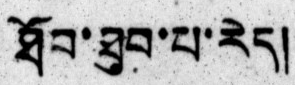ཐོབ་ཐུབ་པ་རེད།
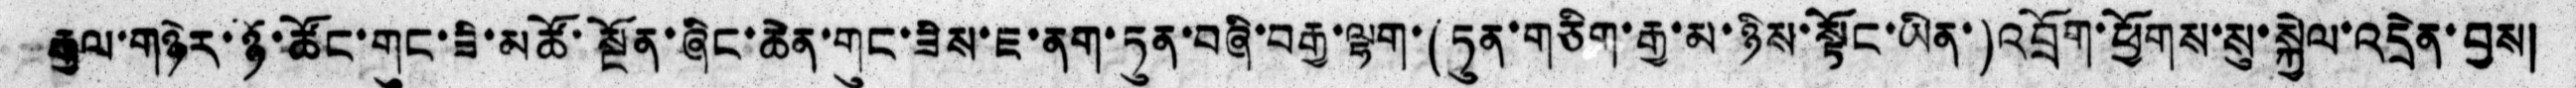རྒྱལ་གཉེར་ཉོ་ཚོང་གུང་ཟི་མཚོ་སྔོན་ཞིང་ཆེན་གུང་ཟིས་ཇ་ནག་ཏུན་བཞི་བརྒྱ་ལྷག་(ཏུན་གཅིག་རྒྱ་མ་ཉིས་སྟོང་ཡིན་)འབྲོག་ཕྱོགས་སུ་སྐྱེལ་འདྲེན་བྱས།
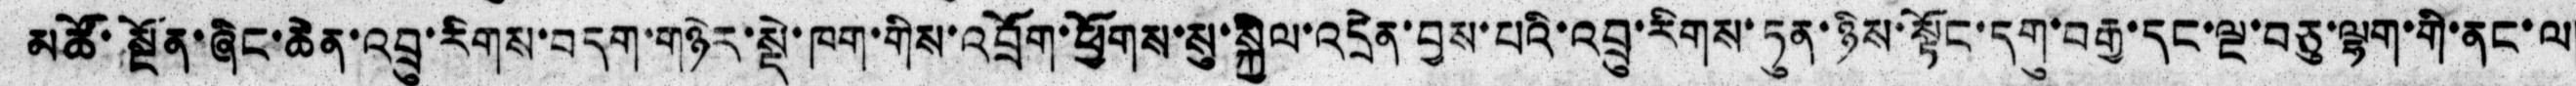མཚོ་སྔོན་ཞིང་ཆེན་འབྲུ་རིགས་བདག་གཉེར་སྡེ་ཁག་གིས་འབྲོག་ཕྱོགས་སུ་སྐྱིལ་འདྲེན་བྱས་པའི་འབྲུ་རིགས་ཏུན་ཉིས་སྟོང་དགུ་བརྒྱ་དང་ལྔ་བཅུ་ལྷག་གི་ནང་ལ།
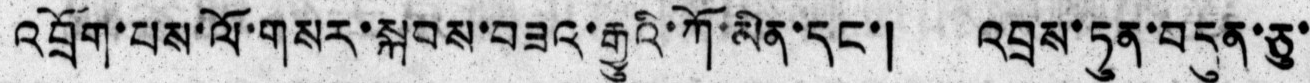འབྲོག་པས་ལོ་གསར་སྐབས་བཟའ་རྒྱུའི་ཀོ་མིན་དང་། འབྲས་ཏུན་བདུན་ཅུ་
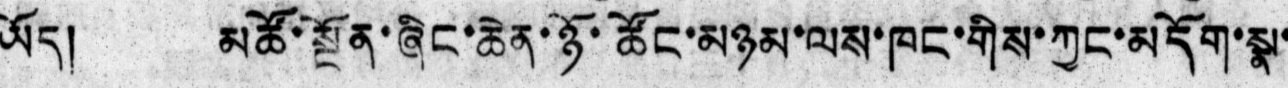ཡོད། མཚོ་སྔོན་ཞིང་ཆེན་ཉོ་ཚོང་མཉམ་ལས་ཁང་གིས་ཀྱང་མདོག་སྣ་
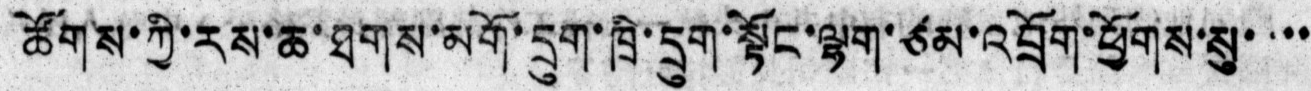ཚོགས་ཀྱི་རས་ཆ་ཐུགས་མགོ་དྲུག་ཁྲི་དྲུག་སྟོང་ལྷག་ཙམ་འབྲོག་ཕྱོགས་སུ་་་་
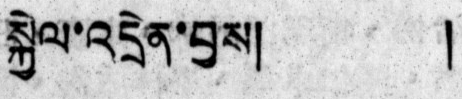སྐྱེལ་འདྲེན་བྱས། །
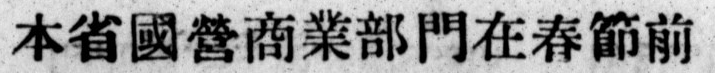本省國營商業部門在春節前
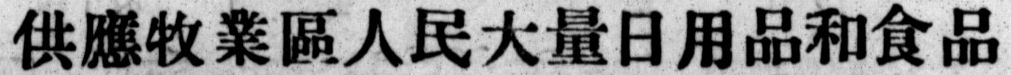供應牧業區人民大量日用品和食品
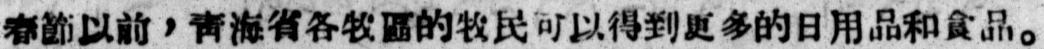春節以前，靑海省各牧區的牧民可以得到更多的日用品和食品。
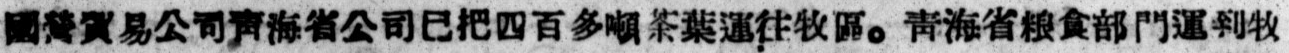國營貿易公司靑海省公司已把四百多噸茶葉運往牧區。靑海省粮食部門運到牧
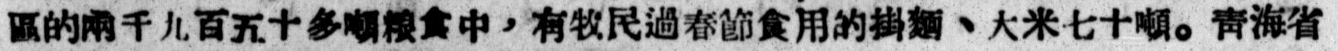區的兩千九百五十多噸粮食中，有牧民過春節食用的掛麵、大米七十噸。靑海省
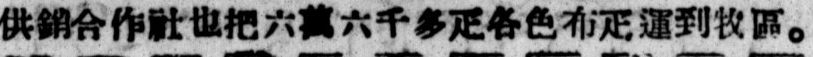供銷合作社也把六萬六千多疋各色布疋運到牧區。
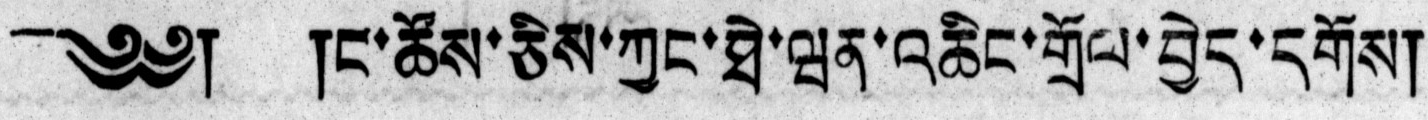༄༅། །ང་ཚོས་ཅིས་ཀྱང་ཐེ་ཝན་འཆིང་གྲོལ་བྱེད་དགོས།
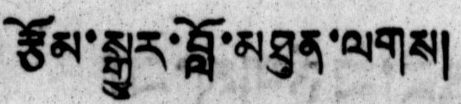རྩོམ་སྒྱུར་བློ་མཐུན་ལགས།
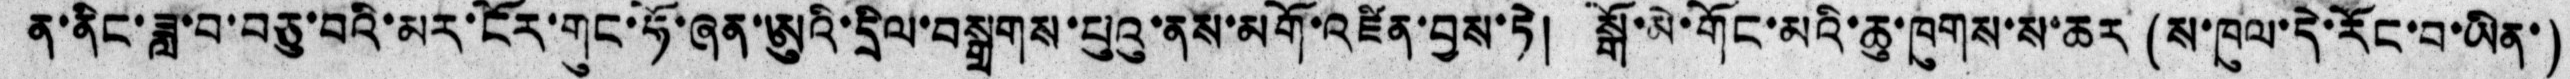ན་ནིང་ཟླ་བ་བཅུ་བའི་མར་ངོར་གུང་ཧོ་ཞན་ཨུའི་དྲིལ་བསྒྲགས་པུའུ་ནས་མགོ་འཛིན་བྱས་ཏེ། སྒོ་མེ་གོང་མའི་ཆུ་ཁུགས་ས་ཆར (ས་ཁུལ་དེ་རོང་བ་ཡིན་)
